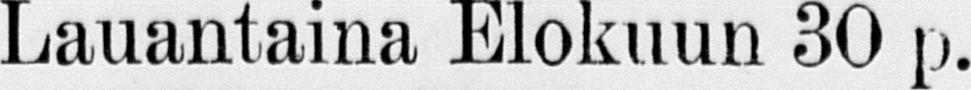Lauantaina Elokuun 30 p.
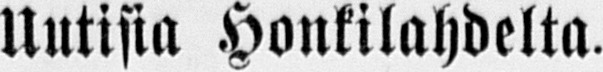Uutisia Honkilahdelta.
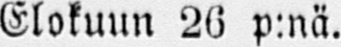Elokuun 26 p:nä.
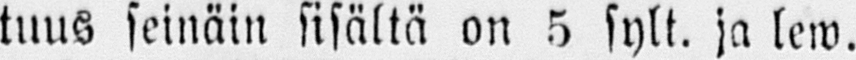tuus seinäin sisältä on 5 sylt. ja lew.
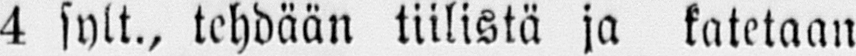4 sylt., tehdään tiilistä ja katetaan
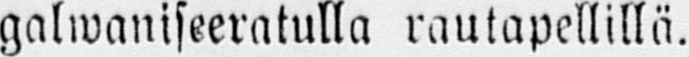ga lwaniseeratulla rautapellillä.
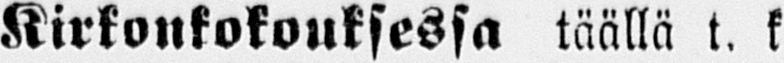Kirkonkokouksessa täällä t. k.
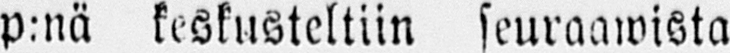18 p:nä keskusteltiin seuraawista
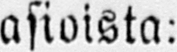asioista:
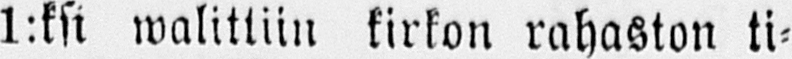1.ksi walittiin kirkon rahaston ti-
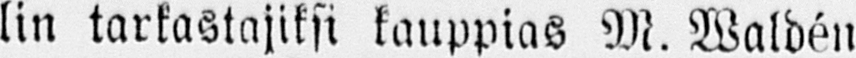lin tarkastajiksi kauppias M. Waldén
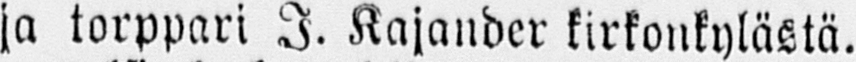ja torppari I. Kajander kirkonkylästä.
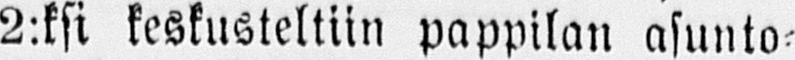2:ksi keskusteltiin pappilan asunto-
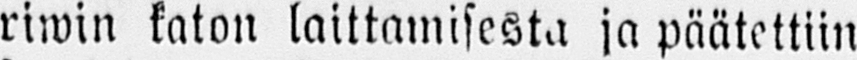riwin katon laittamisesta ja päätettiin
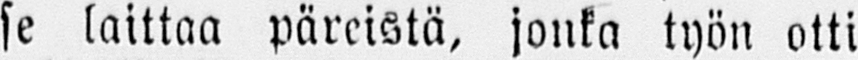se laittaa päreistä, jonka työn otti
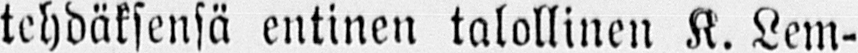tehdäksensä entinen talollinen K. Lem-
